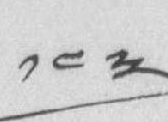༡༤༣
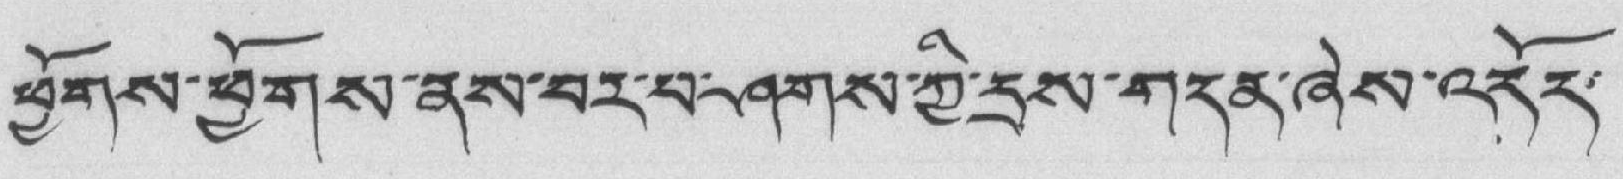ཕྱོགས་ཕྱོགས་ནས་བར་པ་ཤགས་ཀྱི་དྲས་གདན་ཞེས་འདོད་
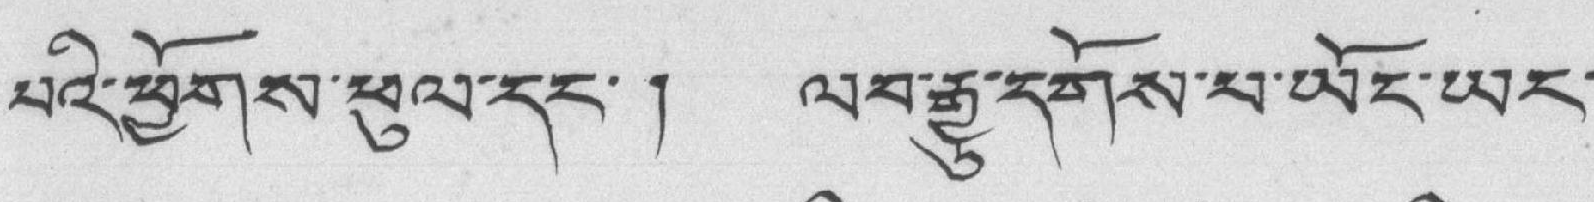པའི་ཕྱོགས་ཕུལ་དང་། ལབ་རྒྱུ་དགོས་པ་ཡོང་ཡང་
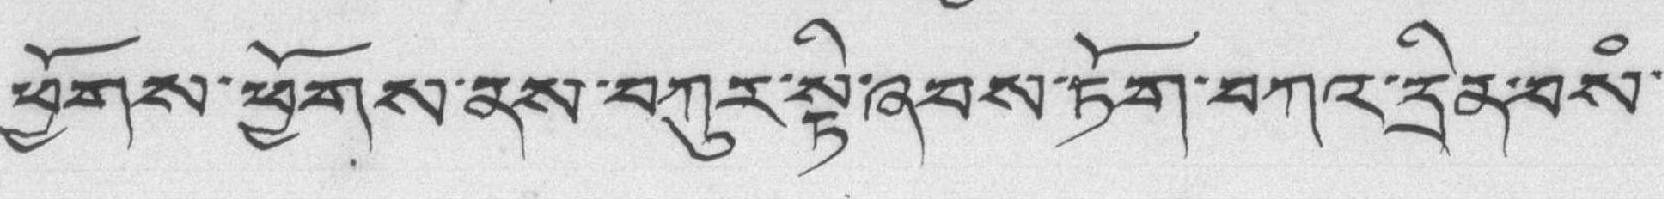ཕྱོགས་ཕྱོགས་ནས་བཀུར་སྟི་ཞབས་ཏོག་བཀའ་དྲིན་བསཾ་
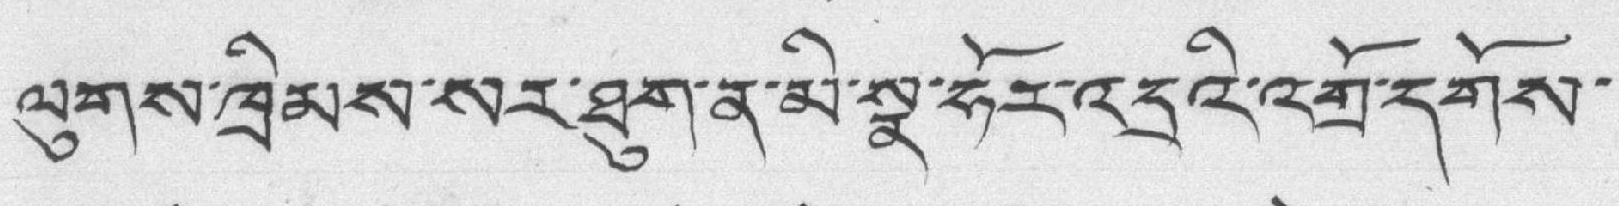ལུགས་ཁྲིམས་སར་ཐུག་ན་མི་སྣ་ཧོར་འདྲའི་འགྲོ་དགོས་
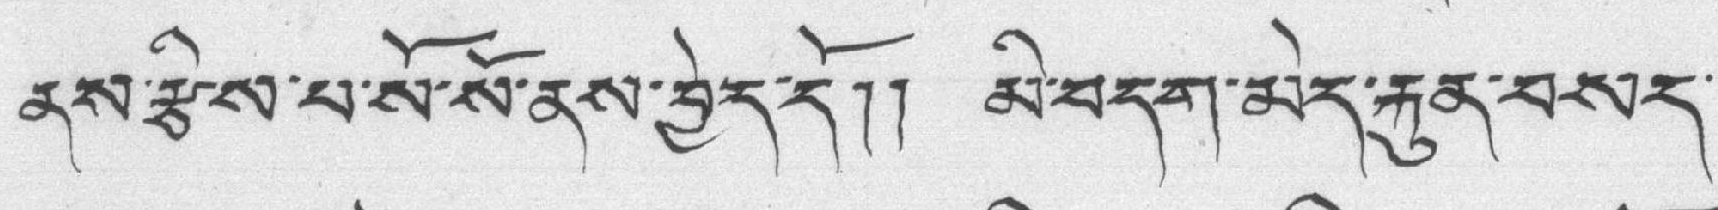ནས་རྩིས་པ་སོ་སོ་ནས་བྱེད་དོ།། མི་བདག་མེད་རྐུན་བསད་
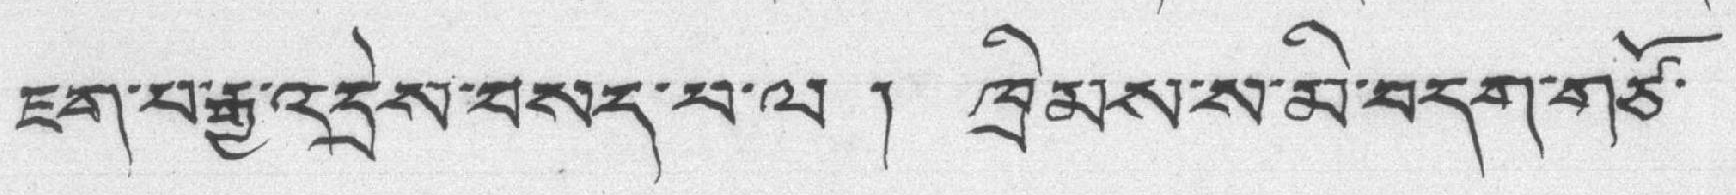ཇག་པ་རྒྱ་འདྲེས་བསད་པ་ལ ། ཁྲིམས་ས་མི་བདག་གཙོ་
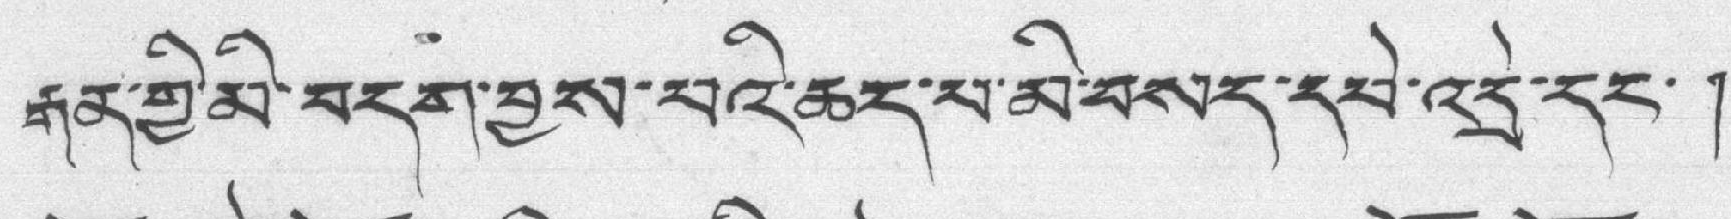རྒན་གྱི་མི་བདག་བྱས་པའི་ཆད་པ་མི་བསད་དཔེ་འདྲེ་དང་ །
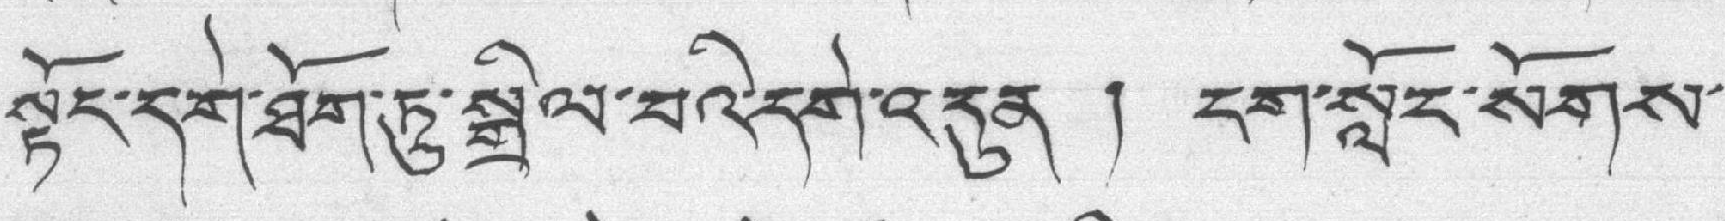སྟོང་དགེ་ཐོག་ཏུ་སྒྲིལ་བའི་དགེ་འདུན ། ངག་སློང་སོགས་
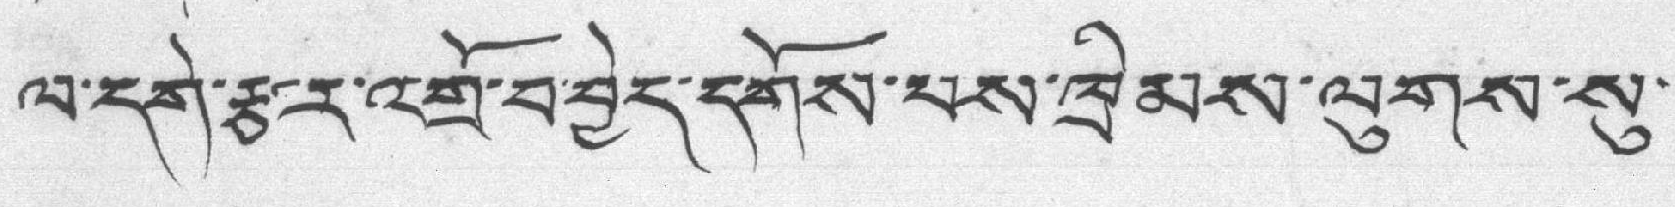ལ་དགེ་རྩར་འགྲོ་བ་བྱེད་དགོས་པས་ཁྲིམས་ལུགས་སུ་
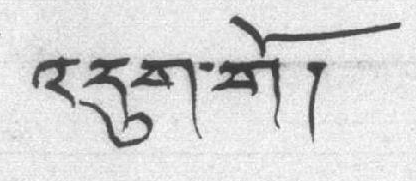འདུག་གོ།
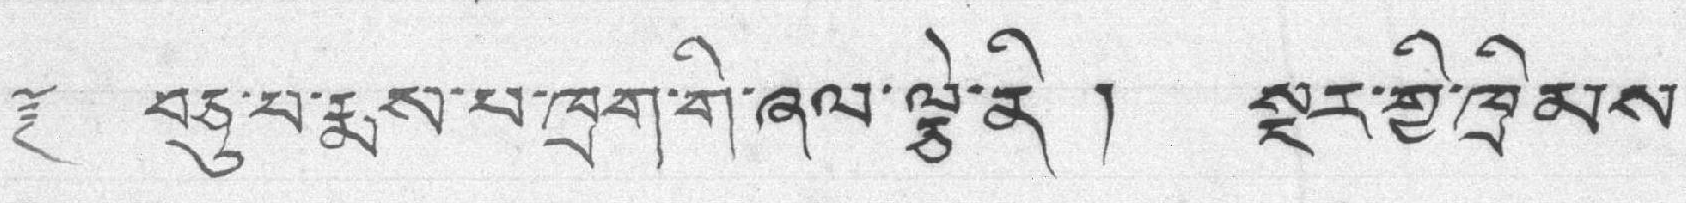༈ བཅུ་པ་རྨས་པ་ཁྲག་གི་ཞལ་ལྕེ་ནི ། སྔར་གྱི་ཁྲིམས་
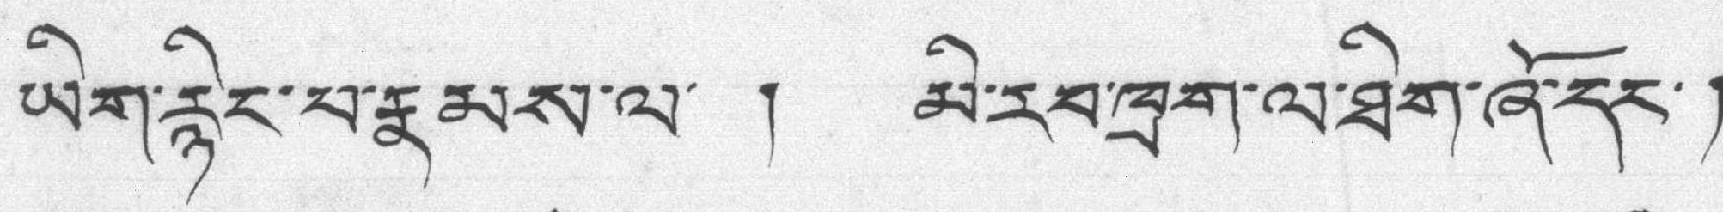ཡིག་རྙིང་པ་རྣམས་ལ་ ། མི་རབ་ཁྲག་ལ་ཐིག་ཞོ་དང་།
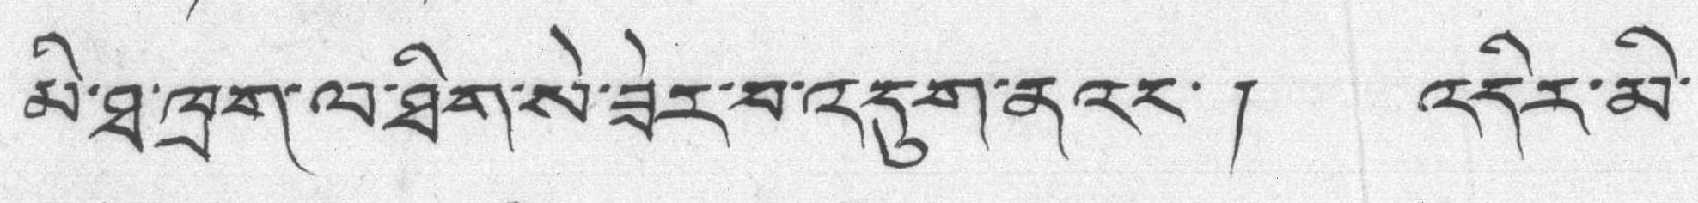མི་ཐ་ཁྲག་ལ་ཐིག་སེ་ཟེར་བ་འདུག་ནའང་། འདིར་མི་
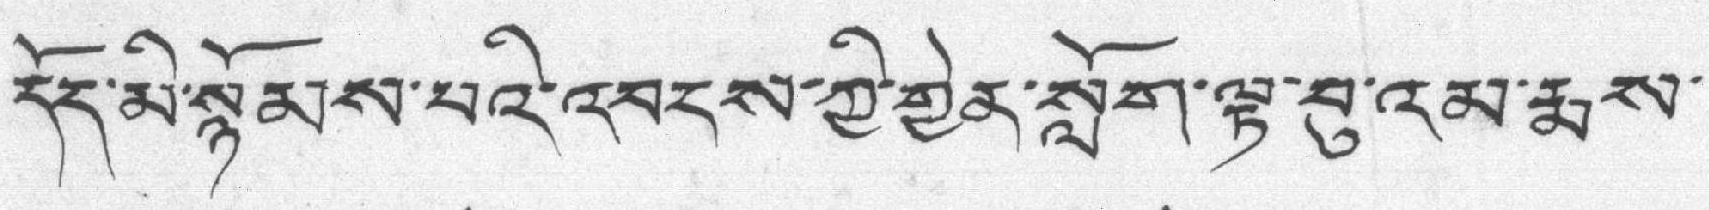དོད་མི་སྙོམས་པའི་འབངས་ཀྱི་གྱེན་སློག་ལྟ་བུ་འམ་རྨས་
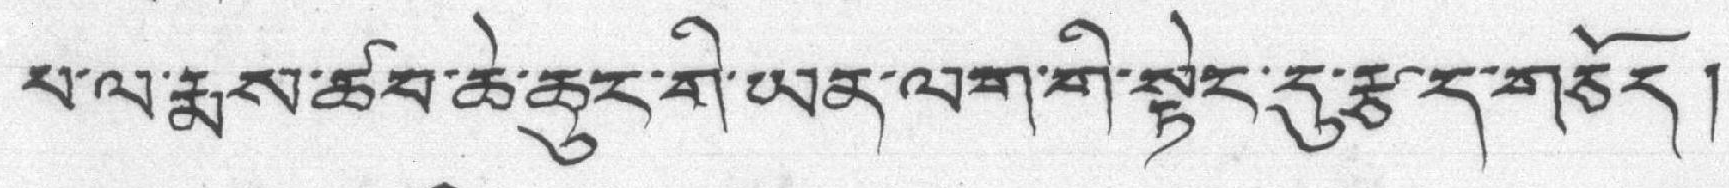པ་ལ་རྨས་ཚབ་ཆེ་ཆུང་གི་ཡིན་ལག་གི་སྟེང་དུ་རྩད་གཅོད།
